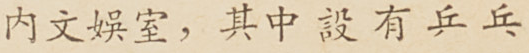內文娛室，其中設有乒乓
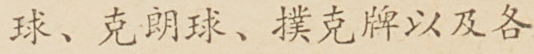球、克朗球、撲克牌以及各
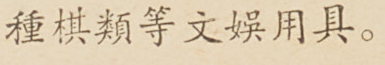種棋類等文娛用具。
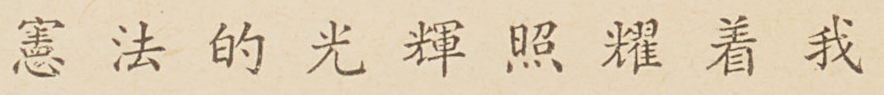憲 法 的 光 輝 照 耀 着 我
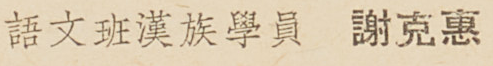語文班漢族學員 謝克惠
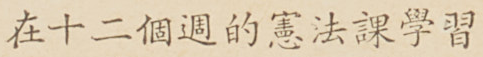在十二個週的憲法課學習
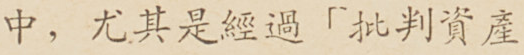中，尤其是經過「批判資產
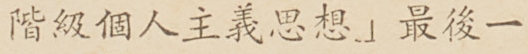階級個人主義思想」最後一
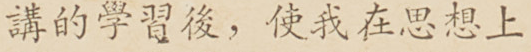講的學習後，使我在思想上
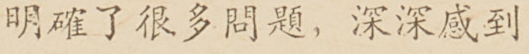明確了很多問題，深深感到
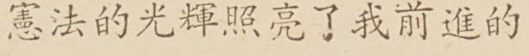憲法的光輝照亮了我前進的
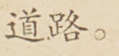道路。
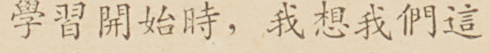學習開始時，我想我們這
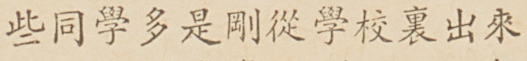些同學多是剛從學校裏出來
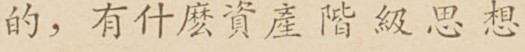的，有什麼資產階級思想
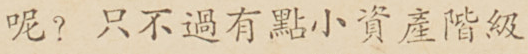呢？只不過有點小資產階級
